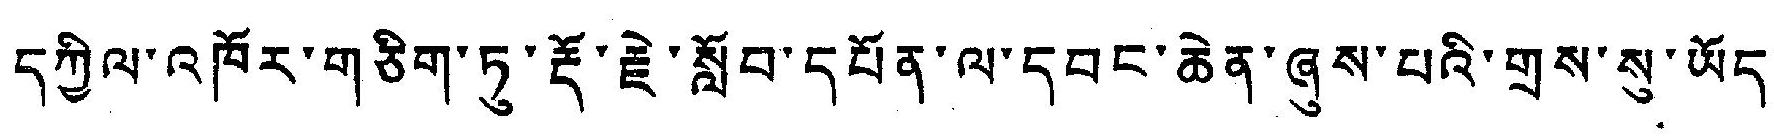དཀྱིལ་འཁོར་གཅིག་ཏུ་རྡོ་རྗེ་སློབ་དཔོན་ལ་དབང་ཆེན་ཞུས་པའི་གྲས་སུ་ཡོད་
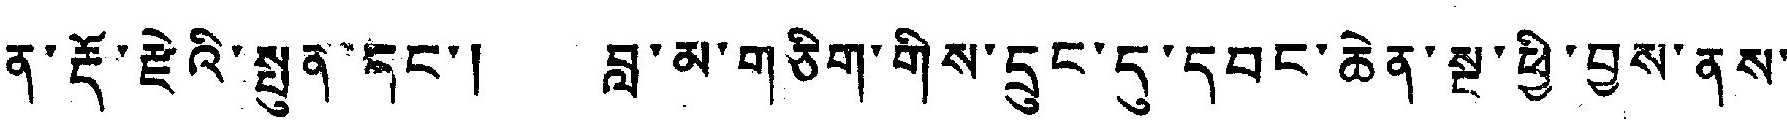ན་རྡོ་རྗེའི་སྤུན་དང་། བླ་མ་གཅིག་གིས་དྲུང་དུ་དབང་ཆེན་སྔ་ཕྱི་བྱས་ནས་
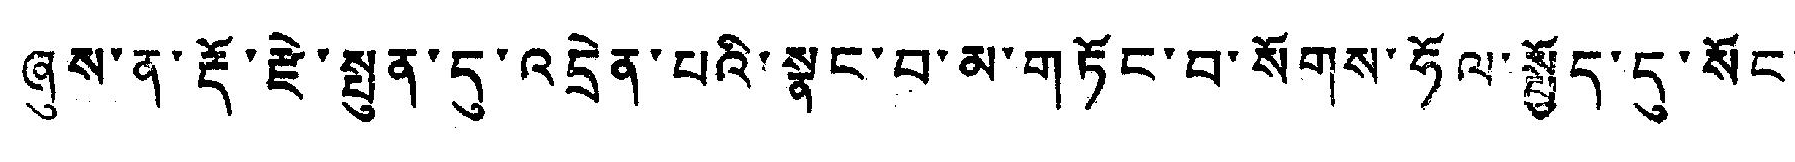ཞུས་ན་རྡོ་རྗེ་སྤུན་དུ་འདྲེན་པའི་སྣང་བ་མ་གཏོང་བ་སོགས་ཧོལ་སྤྱོད་དུ་སོང་
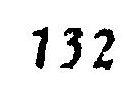132
